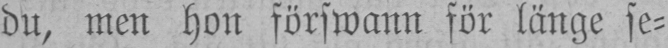du, men hon förswann för länge se-
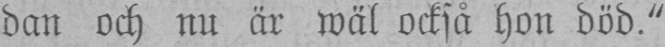dan och nu är wäl också hon död."
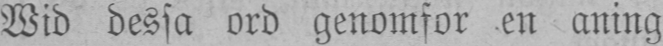Wid dessa ord genomfor en aning
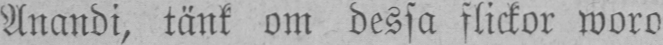Anandi, tänk om dessa flickor woro
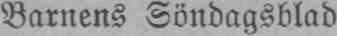Barnens Söndagsblad
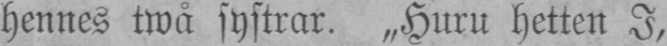hennes twå systrar. „Huru hetten I,
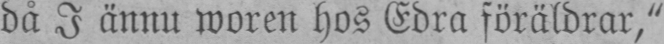då I ännu woren hos Edra föräldrar,"
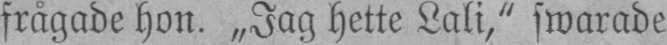frågade hon. „Jag hette Lali," swarade
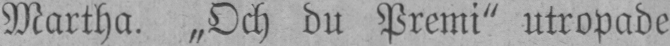Martha. „Och du Premi" utropade
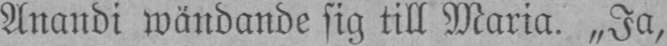Anandi wändande sig till Maria. „Ja,
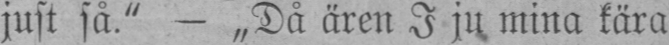just så." — „Då ären I mina kära
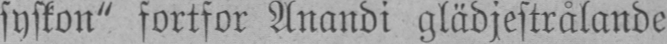syskon" fortfor Anandi glädjestrålande
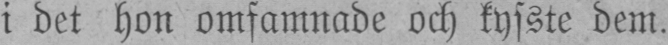i det hon omfamnade och kysste dem.
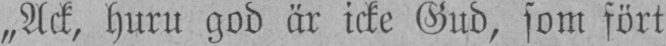„Ack, huru god är icke Gud, som fört
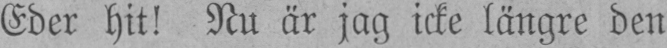Eder hit! Nu är jag icke längre den
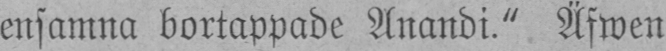ensamna bortappade Anandi." Äfwen
